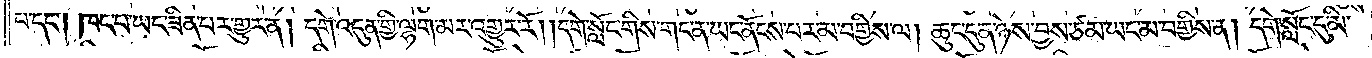པ་དང༌། ཁང་པ་ཡང་ཟིན་པར་གྱུར་ན། དགེ་འདུན་གྱི་ལྷག་མར་འགྱུར་རོ། །དགེ་སློང་གིས་གང་ན་ཡང་ནོངས་པར་མ་བགྱིས་ལ། ཆུང་དུ་ན་ཉེས་བྱས་ཙམ་ཡང་མ་བགྱིས་ན། དགེ་སློང་དུ་མི་
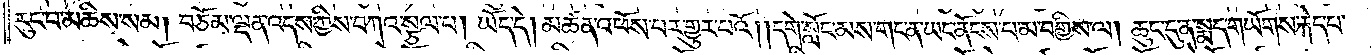རུང་བ་མཆིས་སམ། བཅོམ་ལྡན་འདས་ཀྱིས་བཀའ་སྩལ་པ། ཡོད་དེ། མཚན་འཕོས་པར་གྱུར་པའོ། །དགེ་སློང་མས་གང་ན་ཡང་ནོངས་པ་མ་བགྱིས་ལ། ཆུང་དུ་ན་སྨད་གཡོགས་རྐེད་པ་
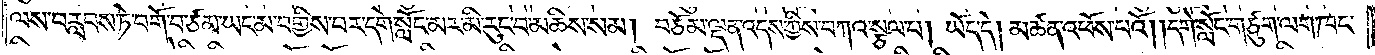ལས་བརླབས་ཏེ་བགོ་བ་ཙམ་ཡང་མ་བགྱིས་པར་དགེ་སློང་མར་མི་རུང་བ་མཆིས་མ། བཅོམ་ལྡན་འདས་ཀྱིས་བཀའ་སྩལ་པ། ཡོད་དེ། མཚན་འཕོས་པའོ། །དགེ་སློང་གཙུག་ལག་ཁང་
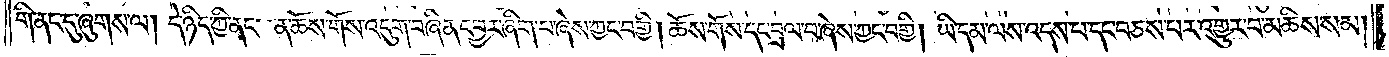གི་ནང་དུ་ཞུགས་ལ། དེ་ཉིད་ཀྱི་ནང་ན་ཆོས་གོས་འདུག་བཞིན་དབྱར་ཞིག་པ་ཞེས་ཀྱང་བགྱི། ཆོས་གོས་དང་བྲལ་བ་ཞེས་ཀྱང་བགྱི། ཡི་དམ་ལས་འདས་པ་དང་བཅས་པར་འགྱུར་བ་མཆིས་སམ།
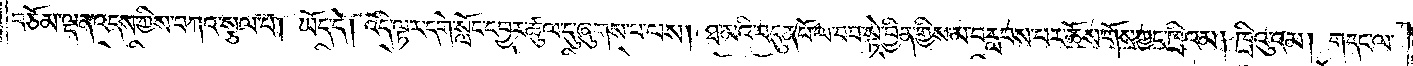བཅོམ་ལྡན་འདས་ཀྱིས་བཀའ་སྩལ་པ། ཡོད་དེ། འདི་ལྟར་དགེ་སློང་དབྱར་ཚུལ་དུ་ཞུགས་པ་ལས། ཐ་མའི་བདུན་པོ་ལ་བབ་སྟེ་བྱིན་གྱིས་མ་བརླབས་པར་ཆོས་གོས་ཀྱང་ཁྲིའམ། ཁྲིའུ་འམ། གདང་ལ་
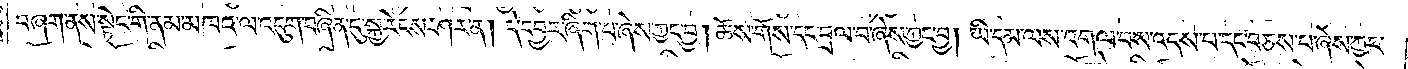བཞག་ནས་སྟེང་གི་ནམ་མཁའ་ལ་འདུག་བཞིན་དུ་སྐྱ་རེངས་ཤར་ན། དེ་དབྱར་ཞིག་པ་ཞེས་ཀྱང་བྱ། ཆོས་གོས་དང་བྲལ་བ་ཞེས་ཀྱང་བྱ། ཡི་དམ་ལས་འགལ་བས་འདས་པ་དང་བཅས་པ་ཞེས་ཀྱང་
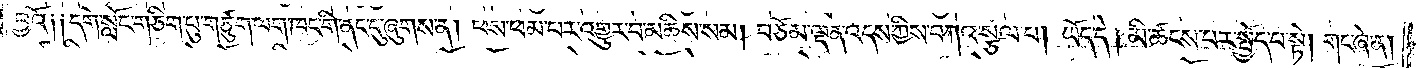བྱའོ༑ ༑དགེ་སློང་གཅིག་པུ་གཙུག་ལག་ཁང་གི་ནང་དུ་ཞུགས་ན། ཕས་ཕམ་པར་འགྱུར་བ་མཆིས་སམ། བཅོམ་ལྡན་འདས་ཀྱིས་བཀའ་སྩལ་པ། ཡོད་དེ། མི་ཚངས་པར་སྤྱོད་པ་སྟེ། གང་ཞེ་ན།
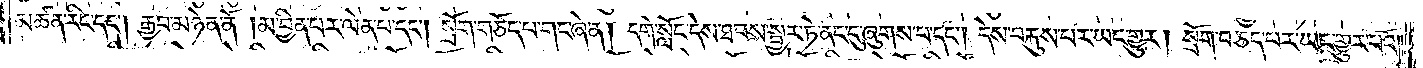མཚན་རིང་དང༌། རྒྱབ་མཉེན་ནོ། །མ་བྱིན་པར་ལེན་པ་དང༌། སྲོག་གཅོད་པ་གང་ཞེ་ན། དགེ་སློང་དེས་ཐབས་སྦྱར་ཏེ་ནང་དུ་ཞུགས་པ་དང༌། དེས་བརྐུས་པར་ཡང་གྱུར། སྲོག་བཅད་པར་ཡང་གྱུར་པའོ། །
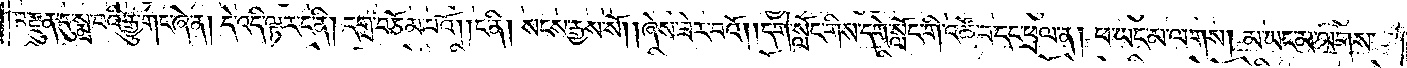བརྫུན་དུ་སྨྲ་བའི་རྒྱུ་གང་ཞེ་ན། དེ་འདི་ལྟར་ང་ནི། དགྲ་བཅོམ་པའོ། །ང་ནི། སངས་རྒྱས་སོ། །ཞེས་ཟེར་བའོ། །དགེ་སློང་གིས་དགེ་སློང་གི་འཚོ་བ་དང་ཕྲལ་ན། ཕ་ཡང་མ་ལགས། མ་ཡང་མ་ལགས་
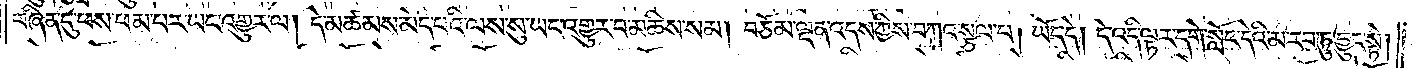བཞིན་དུ་ཕས་ཕམ་པར་ཡང་འགྱུར་ལ། དེ་མཚམས་མེད་པའི་ལས་སུ་ཡང་འགྱུར་བ་མཆིས་སམ། བཅོམ་ལྡན་འདས་ཀྱིས་བཀའ་སྩལ་པ། ཡོད་དེ། དེ་འདི་ལྟར་དགེ་སློང་དེའི་མ་རབ་ཏུ་བྱུང་སྟེ།
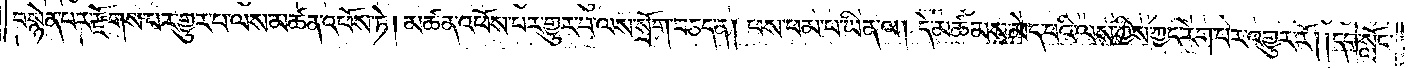བསྙེན་པར་རྫོགས་པར་གྱུར་པ་ལས་མཚན་འཕོས་ཏེ། མཚན་འཕོས་པར་གྱུར་པ་ལས་སྲོག་བཅད་ན། ཕས་ཕམ་པ་ཡིན་ལ། དེ་མཚམས་མེད་པའི་ལས་ཀྱིས་ཀྱང་རེག་པར་འགྱུར་རོ། །དགེ་སློང་
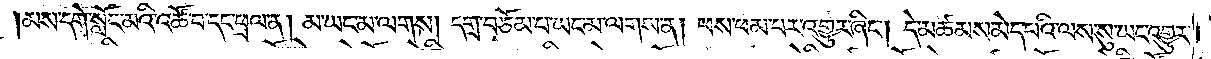མས་དགེ་སློང་མའི་འཚོ་བ་དང་ཕྲལ་ན། མ་ཡང་མ་ལགས། དགྲ་བཅོམ་པ་ཡང་མ་ལགས་ན། ཕས་ཕམ་པར་འགྱུར་ཞིང༌། དེ་མཚམས་མེད་པའི་ལས་སུ་ཡང་འགྱུར་
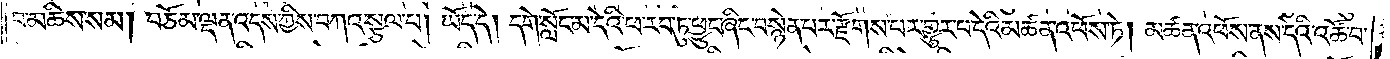བ་མཆིས་སམ། བཅོམ་ལྡན་འདས་ཀྱིས་བཀའ་སྩལ་པ། ཡོད་དེ། དགེ་སློང་མ་དེའི་ཕ་རབ་ཏུ་ཕྱུང་ཞིང་བསྙེན་པར་རྫོགས་པར་གྱུར་པ་དེའི་མཚན་འཕོས་ཏེ། མཚན་འཕོས་ནས་དེའི་འཚོ་བ་
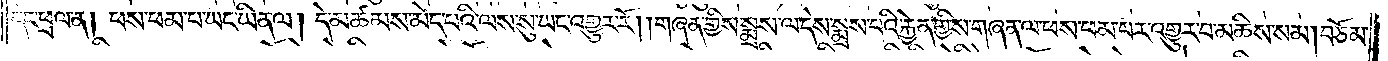དང་ཕྲལ་ན། ཕས་ཕམ་པ་ཡང་ཡིན་ལ། དེ་མཚམས་མེད་པའི་ལས་སུ་ཡང་འགྱུར་རོ། །གཞན་གྱིས་སྨྲས་ལ་དེས་སྨྲས་པའི་རྐྱེན་གྱིས་གཞན་ལ་ཕས་ཕམ་པར་འགྱུར་བ་མཆིས་སམ། བཅོམ་
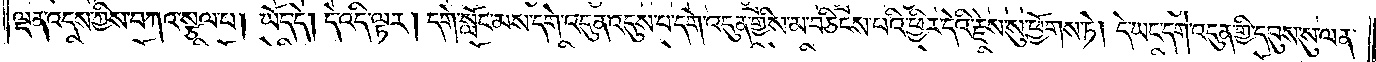ལྡན་འདས་ཀྱིས་བཀའ་སྩལ་པ། ཡོད་དེ། དེ་འདི་ལྟར། དགེ་སློང་མས་དགེ་འདུན་འདུས་པ་དགེ་འདུན་གྱིས་མ་བཅིངས་པའི་ཕྱིར་དེའི་རྗེས་སུ་ཕྱོགས་ཏེ། དེ་ཡང་དགེ་འདུན་གྱི་དབུས་སུ་ལན་
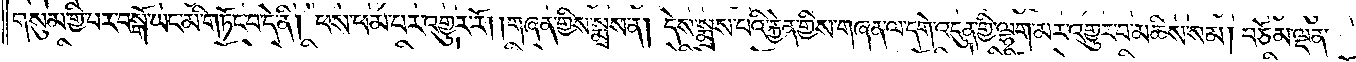གསུམ་གྱི་པར་བསྒོ་ཡང་མི་གཏོང་བ་དེ་ནི། ཕས་ཕམ་པར་འགྱུར་རོ། །གཞན་གྱིས་སྨྲས་ན། དེས་སྨྲས་པའི་རྐྱེན་གྱིས་གཞན་ལ་དགེ་འདུན་གྱི་ལྷག་མར་འགྱུར་བ་མཆིས་སམ། བཅོམ་ལྡན་
